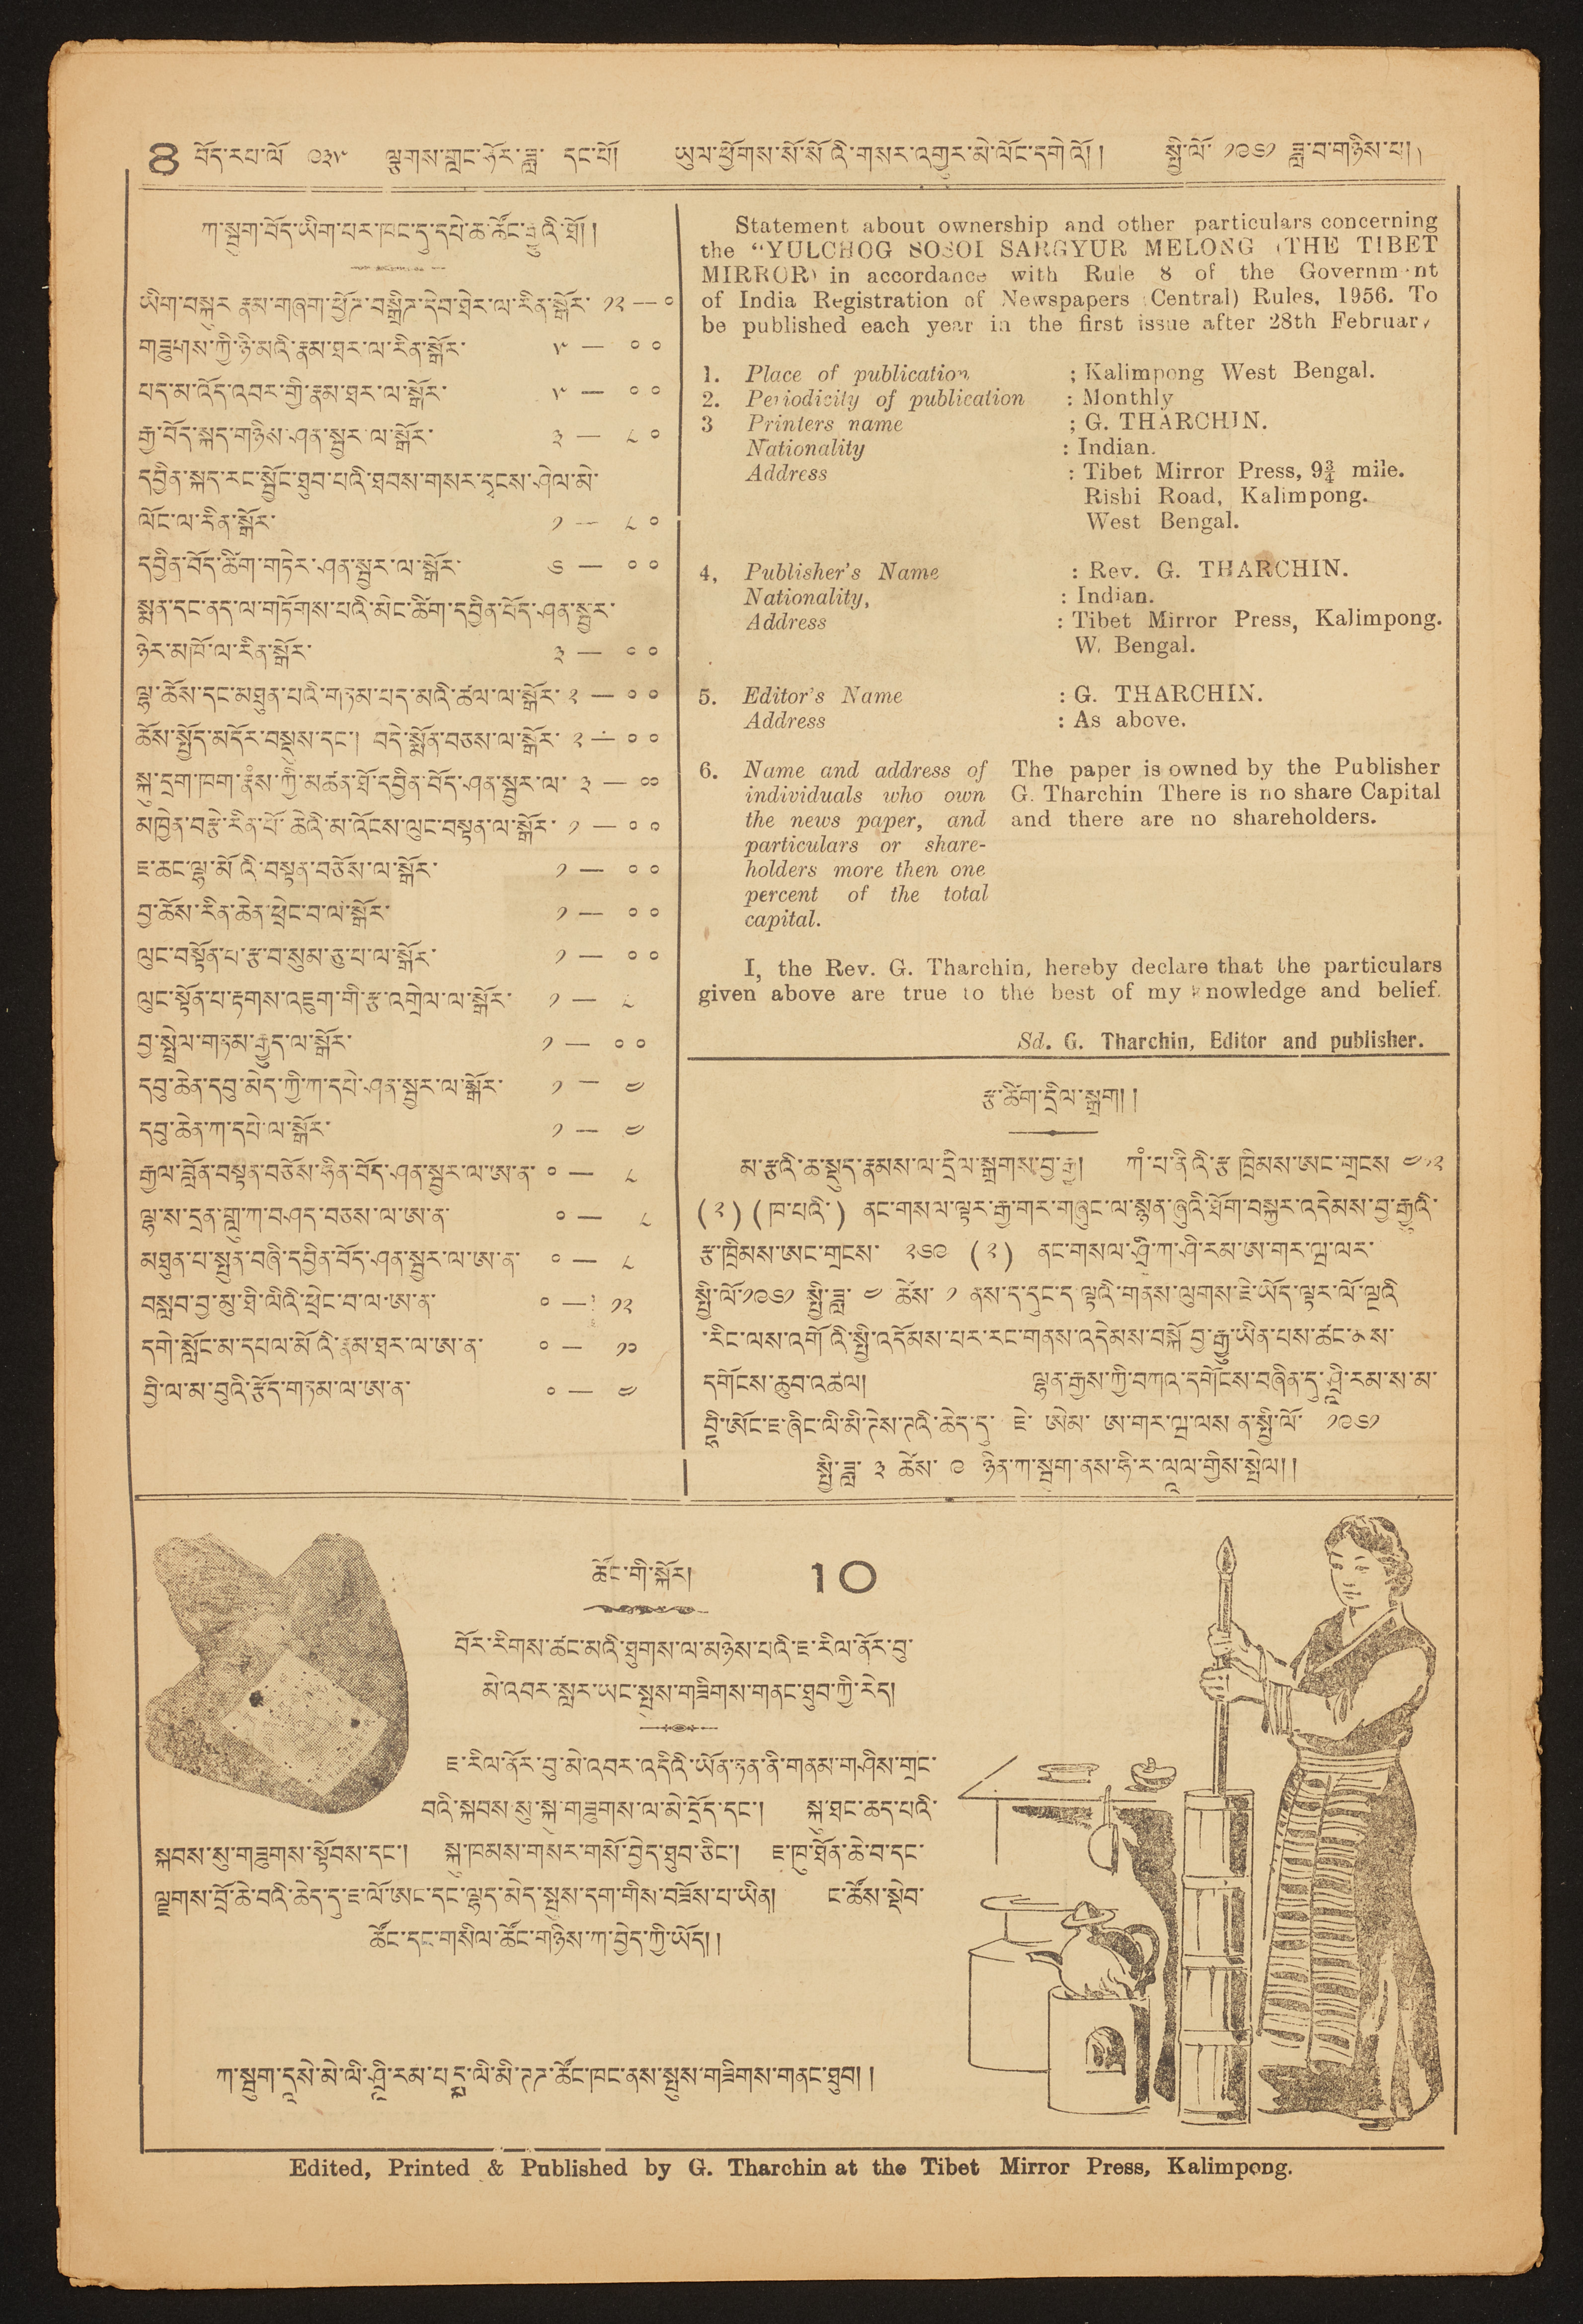8 བོད་རབ་ལོ་ ༩༣༥ ལྕགས་གླང་ཧོར་ཟླ་ དང་པོ། ཡུལ་ཕྱོགས་སོ་སོའི་གསང་འགྱུར་མེ་ལོང་དགེའོ།། སྤྱི་ལོ་ ༡༩༦༡ ཟླ་བ་གཉིས་པ།།
ཀ་སྦུག་བོད་ཡིག་པར་ཁང་དུ་དཔེ་ཆ་ཚོང་རྒྱུའི་ཐོ།།
Statement about ownership and other particulars concerning
the ''YULCHOG SOSOI SARGYUR MELONG (THE TIBET
MIRROR in accordance with Rule 8 of the Government
of India Registration of Newspapers Central) Rules, 1956. To
be published each year on the first issue after 28th February
1. Place of publication : Kalimpong, West Bengal.
2. Periodicity of publication :Monthly.
3. Printer's name : G. THARCHIN.
Nationalioy : Indian.
Address : Tibet Mirror Press, 9¾ mile
Rishi Road, Kalimpong
West Bengal.
4. Publisher's name : Rev. G. THARCHIN.
Nationality, : Indian.
Address :Tibet Mirror Press, Kalimpong.
W. Bengal.
5. Editor's Name : G. THARCHIN
Addess : As above
6. Name and address of The paper is own by the Publisher
individuals who own G. Tharchin, There is no share Capital
the news paper, and and there are no shareholders.
perticulars or share-
holdere more than one
percent of the total
capital.
I, the Rev. G. Tharchin hereby declare that the paticulars
given above are true to the best of my knowledge and belief
sd. G. Tharchin, Editor and publisher.
རྩ་ཚིག་དྲིག་སྒྲག། །
མ་རྩའི་ཆ་སྡུད་རྣམས་ལ་དྲིལ་སྒྲགས་བྱ་རྒྱ། ཀཾ་པ་ནིའི་རྩ ཁྲིམས་ཨང་གྲངས་ ༤༡༢
(༢) (ཁ་པའི་) ནང་གསལ་ལྟར་རྒྱ་གར་གཞུང་ལ་སྙན་ཞུའི་ཐོག་བསྐྱར་འདེམས་བྱ་རྒྱུའི་
རྩ་ཁྲིམས་ཨང་གྲངས་ ༢༦༩ (༢) ནང་གསལ་ཤྲི་ཀ་ཤི་རམ་ཨ་གར་ཝ་ལར་
སྤྱི་ལོ་ ༡༩༦༢ སྤྱི་ཟླ་ ༤ ཚེས་ ༡ ནང་ད་དུང་ད ལྟའི་གནས་ལུགས་ཇི་ཡོད་ལྟར་ལོ་ལྔའི
་རིང་ལས་འགོའི་སྤྱི་འདོམས་པར་རང་གནས་འདེམས་བསྐོ བྱ་རྒྱུ་ཡིན་པས་ཚང་མས་
དགོངས་ཆུབ་འཚལ། ལྷན་རྒྱས་ཀྱི་བཀའ་དགོངས་བཞིན་དུ་ཤྲཱི་རམ་ས་མ་
བྷི་ཨོང་ཇ་ཞིང་ལི་མི་ཊེས་ཊའི་ཆེད་དུ་ ཇེ་ ཨེམ་ ཨ་གར་ཝ་ལས ན་སྤྱི་ལོ་ ༡༩༦༡
སྤྱི་ཟླ་ ༣ ཚེས་ ༩ ཉིན་ཀ་སྦུག་ནས་ཧི་ར་ལཱལ་གྱིས་སྤེལ།།
ཚོང་གི་སྐོར། 10
བོར་རིགས་ཚང་མའི་ཐུགས་ལ་མཉེས་པའི་ཇ་རིལ་ནོར་བུ་
མེ་འབར་སླར་ཡང་སྤས་གཟིགས་གནང་ཐུབ་ཀྱི་རེད།
ཇ་རིལ་ནོར་བུ་མེ་འབར་འདིའི་ཡོན་ཏན་ནི་གནམ་གཤིས་གྲང་
བའི་སྐབས་སུ་སྐུ་གཟུགས་ལ་མེ་གྲོད་དང་། སྐུ་ཐང་ཆད་པའི་
སྐབས་སུ་གཟུགས་སྟོབས་དང་། སྐུ་ཁམས་གསར་གསོ་བྱེད་ཐུབ་ཅིང་། ཇ་ཁུ་ཐོན་ཆེ་བ་དང་
ལྗགས་བྲོ་ཆེ་བའི་ཆེད་དུ་ཇ་ལོ་ཨང་དང་ལྷད་མེད་སྤུས་དག་གིས་བཟོས་པ་ཡིན། ང་ཚོས་སྡེབ་
ཚོང་དང་གསིལ་ཚོང་གཉིས་བྱེད་ཀྱི་ཡོད།།
ཀ་སྦུག་དཱསེ་མེ་ལི་ཤྲཱི་རམ་པདྨ་ལི་མི་ཊཌ་ཚོང་ཁང་ནས་སྤུག་གཟིགས་གནང་ཐུབ།།
Edited, Printed & Published by G. Tharchin at the Tibet Mirror Press, Kalimpong.
